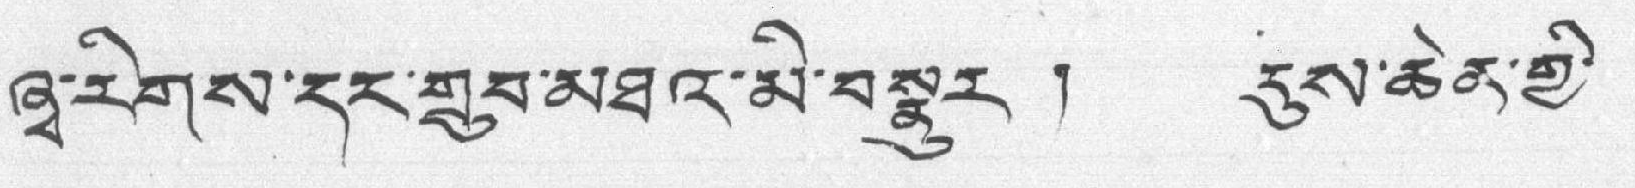ཞྭ་རིགས་དང་གྲུབ་མཐའ་མི་བསྣུར ། དུས་ཆེན་གྱི་
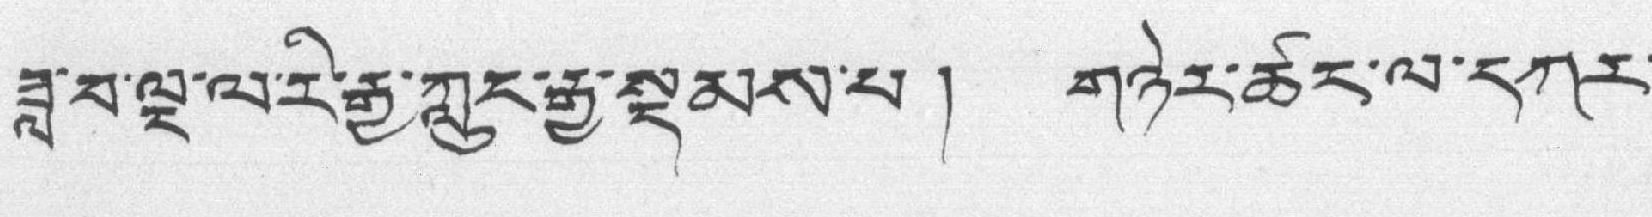ཟླ་བ་ལྔ་ལ་རི་རྒྱ་ཀླུང་རྒྱུ་སྡུམས་པ། གཉེར་ཚར་ལ་དཀར་
